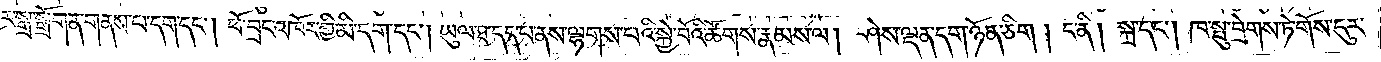ར་སྒྲ་སྒྲོག་ན་གནས་པ་དག་དང༌། ཕོ་བྲང་འཁོར་གྱི་མི་དག་དང༌། ཡུལ་ཐ་དད་པ་ནས་ལྷགས་པའི་སྐྱེ་བོའི་ཚོགས་རྣམས་ལ། ཤེས་ལྡན་དག་ཉོན་ཅིག །ང་ནི། སྐྲ་དང༌། ཁ་སྤུ་བྲེགས་ཏེ་གོས་ངུར་
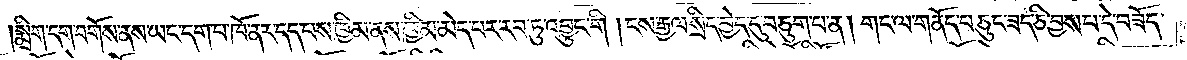།སྨྲིག་དག་བགོས་ནས་ཡང་དག་པ་ཁོ་ནར་དད་པས་ཁྱིམ་ནས་ཁྱིམ་མེད་པར་རབ་ཏུ་འབྱུང་གི །ངས་རྒྱལ་སྲིད་བྱེད་དུ་བཅུག་པ་ན། གང་ལ་གནོད་པ་ཅུང་ཟད་ཅི་བྱས་པ་དེ་བཟོད་
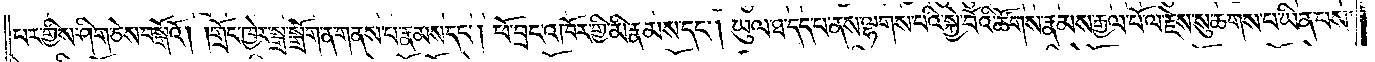པར་གྱིས་ཤིག་ཅེས་བསྒོའོ། །གྲོང་ཁྱེར་སྒྲ་སྒྲོག་ན་གནས་པ་རྣམས་དང༌། ཕོ་བྲང་འཁོར་གྱི་མི་རྣམས་དང༌། ཡུལ་ཐ་དད་པ་ནས་ལྷགས་པའི་སྐྱེ་བོའི་ཚོགས་རྣམས་རྒྱལ་པོ་ལ་རྗེས་སུ་ཆགས་པ་ཡིན་པས་
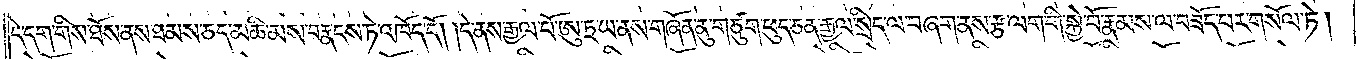དེ་དག་གིས་ཐོས་ནས་ཐམས་ཅད་མཆི་མས་བརྣངས་ཏེ་འཁོད་དོ། །དེ་ནས་རྒྱལ་པོ་ཨུ་ཏྲ་ཡ་ནས་གཞོན་ནུ་གཙུག་ཕུད་ཅན་རྒྱལ་སྲིད་ལ་བཞག་ནས་རྩ་ལག་གི་སྐྱེ་བོ་རྣམས་ལ་བཟོད་པར་གསོལ་ཏེ།
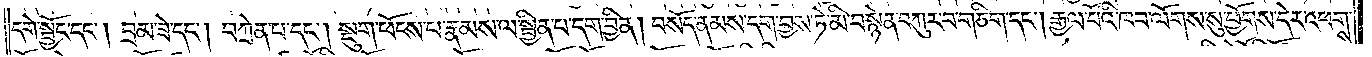དགེ་སྦྱོང་དང༌། བྲམ་ཟེ་དང༌། བཀྲེན་པ་དང༌། སྡུག་ཕོངས་པ་རྣམས་ལ་སྦྱིན་པ་དག་བྱིན། བསོད་ནམས་དག་བྱས་ཏེ་མི་བསྙེན་བཀུར་བ་གཅིག་དང༌། རྒྱལ་པོའི་ཁབ་ལོགས་སུ་ཕྱོགས་དེར་འཕགས་
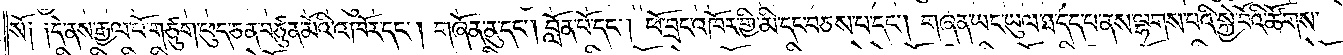སོ༑ ༑དེ་ནས་རྒྱལ་པོ་གཙུག་ཕུད་ཅན་བཙུན་མོའི་འཁོར་དང༌། གཞོན་ནུ་དང༌། བློན་པོ་དང༌། ཕོ་བྲང་འཁོར་གྱི་མི་དང་བཅས་པ་དང༌། གཞན་ཡང་ཡུལ་ཐ་དད་པ་ནས་ལྷགས་པའི་སྐྱེ་བོའི་ཚོགས་
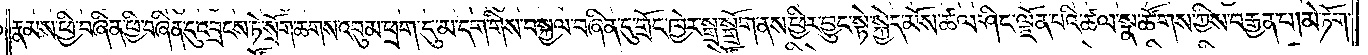རྣམས་ཕྱི་བཞིན་ཕྱི་བཞིན་དུ་འབྲངས་ཏེ་སྲོག་ཆགས་འབུམ་ཕྲག་དུ་མ་དག་གིས་བསྐྱལ་བཞིན་དུ་གྲོང་ཁྱེར་སྒྲ་སྒྲོག་ནས་ཕྱིར་བྱུང་སྟེ་སྐྱེད་མོས་ཚལ་ཤིང་ལྗོན་པའི་ཚལ་སྣ་ཚོགས་ཀྱིས་བརྒྱན་པ། མེ་ཏོག་
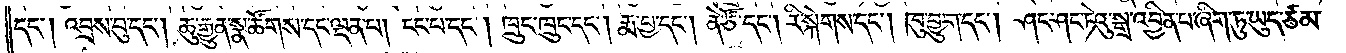དང༌། འབྲས་བུ་དང༌། ཆུ་རྒྱུན་སྣ་ཚོགས་དང་ལྡན་པ། ངང་པ་དང༌། ཁྲུང་ཁྲུང་དང༌། རྨ་བྱ་དང༌། ནེ་ཙོ་དང༌། རི་སྐེགས་དང༌། ཁུ་བྱུག་དང༌། ཤང་ཤང་ཏེའུ་སྒྲ་འབྱིན་པ་ཞིག་ཏུ་ཡུད་ཙམ་
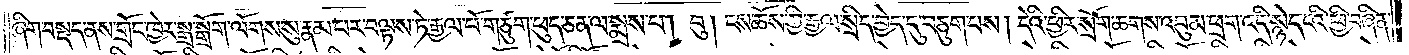ཞིག་བསྡད་ནས་གྲོང་ཁྱེར་སྒྲ་སྒྲོག་ལོགས་སུ་རྣམ་པར་བལྟས་ཏེ་རྒྱལ་པོ་གཙུག་ཕུད་ཅན་ལ་སྨྲས་པ། བུ། ངས་ཆོས་ཀྱི་རྒྱལ་སྲིད་བྱེད་དུ་བཅུག་པས། དེའི་ཕྱིར་སྲོག་ཆགས་འབུམ་ཕྲག་འདི་སྙེད་ངའི་ཕྱི་བཞིན་
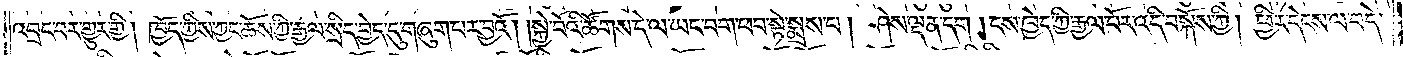འབྲང་བར་གྱུར་གྱི། ཁྱོད་ཀྱིས་ཀྱང་ཆོས་ཀྱི་རྒྱལ་སྲིད་བྱེད་དུ་གཞུག་པར་བྱའོ། །སྐྱེ་བོའི་ཚོགས་དེ་ལ་ཡང་བག་ཕབ་སྟེ་སྨྲས་པ། ཤེས་ལྡན་དག །ངས་ཁྱེད་ཀྱི་རྒྱལ་པོར་འདི་བསྐོས་ཀྱི། ཕྱིར་དེངས་ལ་བདེ་
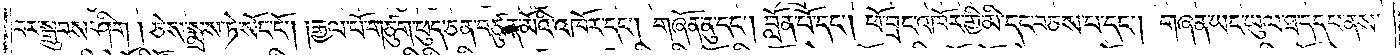བར་སྒྲུབས་ཤིག །ཅེས་སྨྲས་ཏེ་སོང་ངོ༌། །རྒྱལ་པོ་གཙུག་ཕུད་ཅན་བཙུན་མོའི་འཁོར་དང༌། གཞོན་ནུ་དང༌། བློན་པོ་དང༌། ཕོ་བྲང་འཁོར་གྱི་མི་དང་བཅས་པ་དང༌། གཞན་ཡང་ཡུལ་ཐ་དད་པ་ནས་
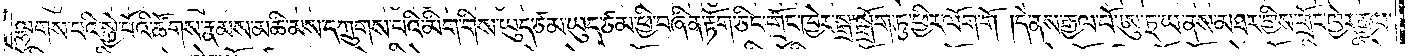ལྷགས་པའི་སྐྱེ་བོའི་ཚོགས་རྣམས་མཆི་མས་དཀྲུགས་པའི་མིག་གིས་ཡུད་ཙམ་ཡུད་ཙམ་ཕྱི་བཞིན་རྟོག་ཅིང་གྲོང་ཁྱེར་སྒྲ་སྒྲོག་ཏུ་ཕྱིར་ལོག་གོ །དེ་ནས་རྒྱལ་པོ་ཨུ་ཏྲ་ཡ་ནས་མཐར་གྱིས་གྲོང་ཁྱེར་རྒྱལ་
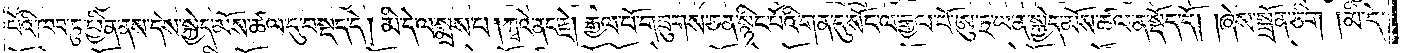པོའི་ཁབ་ཏུ་ཕྱིན་ནས་དེས་སྐྱེད་མོས་ཚལ་དུ་བསྡད་དེ། མི་དེ་ལ་སྨྲས་པ། ཀྭའེ་ནང་རྗེ། རྒྱལ་པོ་གཟུགས་ཅན་སྙིང་པོའི་གན་དུ་སོང་ལ་རྒྱལ་པོ་ཨུ་ཏྲ་ཡ་ན་སྐྱེད་མོས་ཚལ་ན་སྡོད་དོ། །ཞེས་སྦྲོན་ཅིག །མི་དེ་
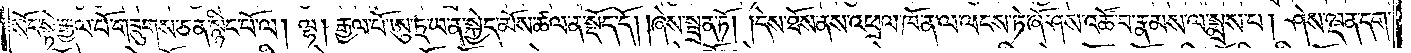སོང་སྟེ་རྒྱལ་པོ་གཟུགས་ཅན་སྙིང་པོ་ལ། ལྷ། རྒྱལ་པོ་ཨུ་ཏྲ་ཡ་ན་སྐྱེད་མོས་ཚལ་ན་སྡོད་དོ། །ཞེས་སྦྲན་ཏོ། །དེས་ཐོས་ནས་འཕྲལ་ཁོ་ན་ལ་ལངས་ཏེ་ཞོ་ཤས་འཚོ་བ་རྣམས་ལ་སྨྲས་པ། ཤེས་ལྡན་དག་
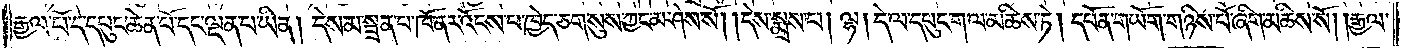རྒྱལ་པོ་དེ་དཔུང་ཆེན་པོ་ངང་ལྡན་པ་ཡིན། དེས་མ་སྦྲན་པ་ཁོ་ནར་འོངས་པ་ཁྱེད་ཅག་སུས་ཀྱང་མ་ཤེས་སོ། །དེས་སྨྲས་པ། ལྷ། དེ་ལ་དཔུང་ག་ལ་མཆིས་ཏེ། དཔོན་གཡོག་གཉིས་པོ་ཞིག་མཆིས་སོ། །རྒྱལ་
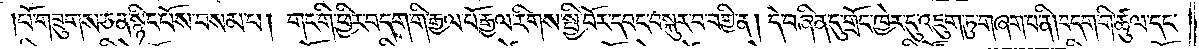།པོ་གཟུགས་ཅན་སྙིང་པོས་བསམ་པ། གང་གི་ཕྱིར་བདག་གི་རྒྱལ་པོ་རྒྱལ་རིགས་སྤྱི་བོར་དབང་བསྐུར་བ་བགྱི་ན། དེ་བཞིན་དུ་གྲོང་ཁྱེར་དུ་འཇུག་ཏུ་གཞག་པ་ནི།བདག་གི་ཚུལ་དང་
